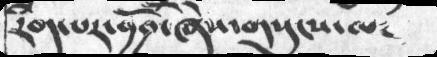རིག་པར་བྱའོ་ཞེས་གསུངས་ལ༴
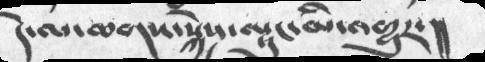དེ་ལ་ཆགས་སྐྱེས་ལྟུང་མི་འགྱུར་།།
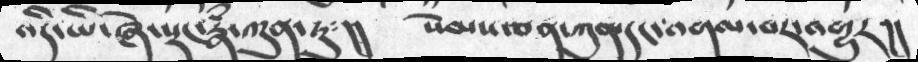འདི་ཡི་ཞེ་སྡང་རྣཾ་ཀུན་ཏུ༴།།   སེམས་ཅན་ཀུན་དང་འགལ་བར་འགྱུར།།
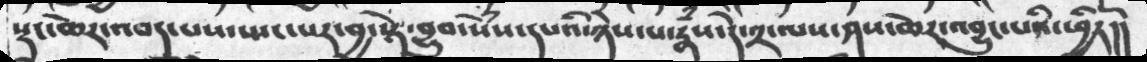སྡང་ཆེར་འབད་པས་སྤང་པར་བྱ་སྟེ་བྱུབ་སེཾས་དཔའི་ཉེས་པ་རྣཾས་དེ་༢་ལས་ཤས་ཆེར་འབྱུང་པའི་ཕྱིརོ།།
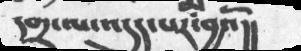དགྲ་ལ་འདུད་པར་བྱའོ།།
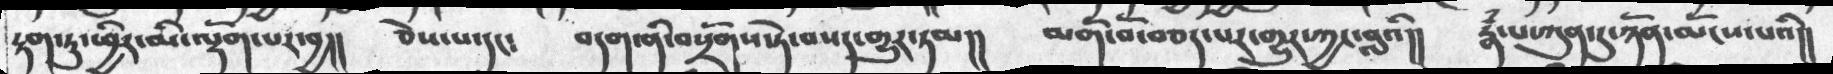རྟག་ཏུ་ཕྱིར་མི་ལྡོག་པར་བྱ།།  ཅེས་པ་དང༴  བདག་ནི་བསྲོགས་ཏེ་བསད་གྱུར་ཏམ།།  མགོ་བོ་བཅད་པར་གྱུར་ཀྱང་བླའི།།  རྣཾ་པ་ཀུན་དུ་ཉོན་མོངས་པའི།།
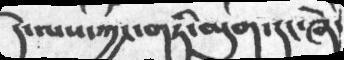དེ་ལས་ཀྱང་གཏི་མུག་དང་ཞེ་
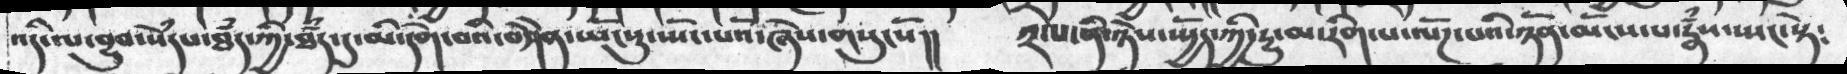འདི་ལ་བྱུབ་སེཾདཔ་ཐཾད་ཀྱི་ཐཾད་དུ་མི་རེག་བའི་བཤེེན་ཡོངསུ་སྤོང་པའོ་ཞེས་གསུངསོ།།  ༢་པ་ནི་ཉེས་སྤྱོད་ཀྱི་རྒྱུ་མ་རིག་པ་ལོཌ་པའི་ཉོན་མོངས་པ་རྣཾས་སྤང་སྟེ༴
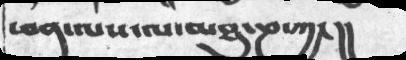ཕན་ལས་ལ་མཐུ་ཎ་ཀྱང།།
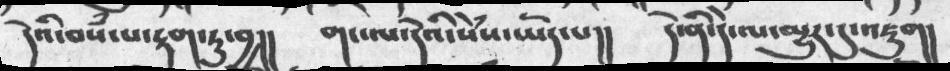དེའི་བསཾ་པ་རྟག་ཏུ་བྱ།།  གང་ལ་དེའི་སེཾས་ཡོད་པ།།  དེ་ནི་དེ་ལ་མྱུར་དུ་འཇུག།
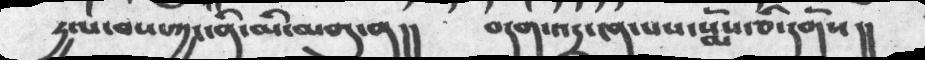དྱལ་བས་ཀྱང་ནི་མི་མགུ་ན།།   བདག་འདྲ་ངན་པས་སྨོས་ཅི་དགོས།།
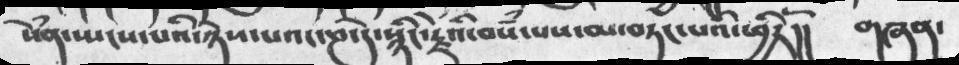སེཾན་ཡངས་པའི་ཉེས་པའང་ཎ་དེ་སྙིང་རྗེའི་བསཾ་པས་མ་བཏང་པའི་ཕྱིརོ།།  གཞན
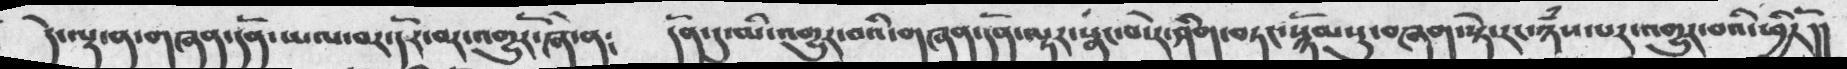དེ་ལྟ་ན་གཞན་དོན་ཡལ་བར་དོར་བར་འགྱུརོ་ཞེ་ན༴   དོན་དུ་མི་འགྱུར་བའི་གཞན་དོན་ལྟར་སྣང་བ་རེ་ཤིག་བཏང་སྙོམསུ་བཞག་སྟེ་རང་ཉཾས་པར་འགྱུར་བའི་ཕྱིརོ།།
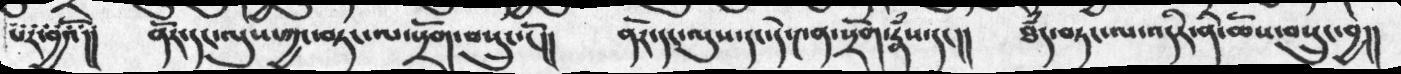པར་བྱའོ།།  ནོར་དང་ལུས་ཀྱི་བཏང་ལ་སྲོག་བསྲུང་ངོ།།  ནོར་དང་ལུས་དང་དེ་༤ན་སྲོག་རྣཾས་དང།།  ཐཾད་བཏང་ལ་འདིར་ནི་ཆོས་བསྲུང་བྱ།།
